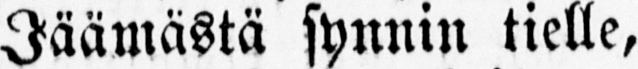Jäämästä synnin tielle,
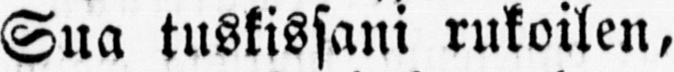Sua tuskissani rukoilen,
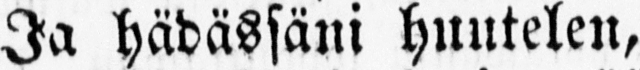Ja hädässäni huutelen,
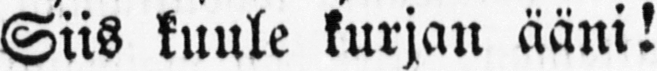Siis kuule kurjan ääni!
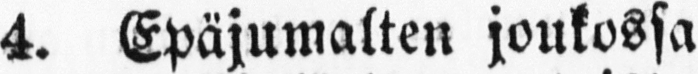4. Epäjumalten joukossa
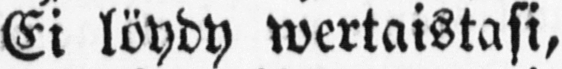Ei löydy wertaistasi,
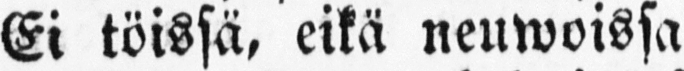Ei töissä, eikä neuwoissa
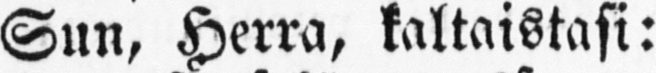Sun, Herra, kaltaistasi:
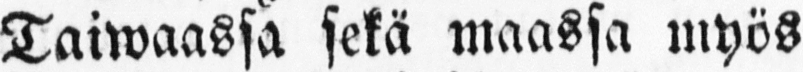Taiwaassa sekä maassa myös
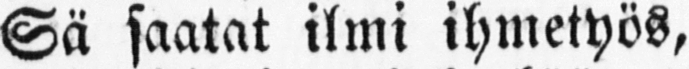Sä saatat ilmi ihmetyös,
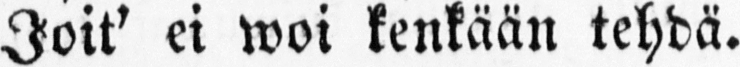Joit' ei woi kenkään tehdä.
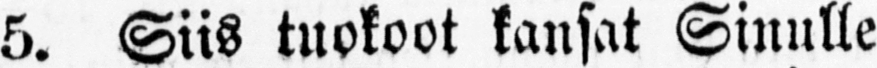5. Siis tuokoot kansat Sinulle
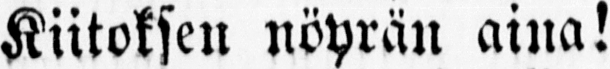Kiitoksen nöyrän aina!
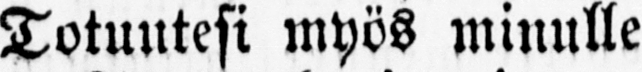Totuutesi myös minulle
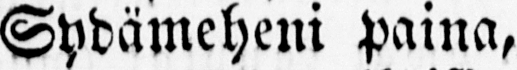Sydämeheni paina,
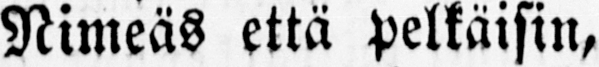Nimeäs että pelkäisin,
